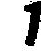1
